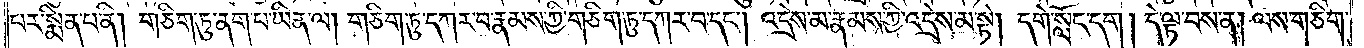པར་སྨིན་པ་ནི། གཅིག་ཏུ་ནག་པ་ཡིན་ལ། གཅིག་ཏུ་དཀར་བ་རྣམས་ཀྱི་གཅིག་ཏུ་དཀར་བ་དང༌། འདྲེས་མ་རྣམས་ཀྱི་འདྲེས་མ་སྟེ། དགེ་སློང་དག །དེ་ལྟ་བས་ན། ལས་གཅིག་
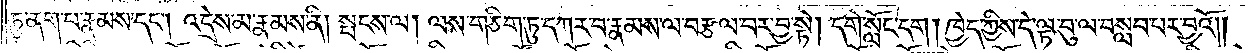ཏུ་ནག་པ་རྣམས་དང༌། འདྲེས་མ་རྣམས་ནི། སྤངས་ལ། ལས་གཅིག་ཏུ་དཀར་བ་རྣམས་ལ་བརྩལ་བར་བྱ་སྟེ། དགེ་སློང་དག ། ཁྱེད་ཀྱིས་དེ་ལྟ་བུ་ལ་བསླབ་པར་བྱའོ༎
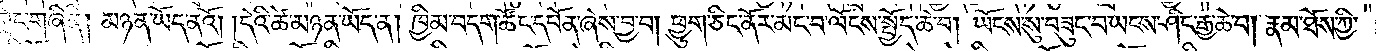གླེང་གཞི་ནི། མཉན་ཡོད་ནའོ། །དེའི་ཚེ་མཉན་ཡོད་ན། ཁྱིམ་བདག་ཚོང་དབོན་ཞེས་བྱ་བ། ཕྱུག་ཅིང་ནོར་མང་བ་ལོངས་སྤྱོད་ཆེ་བ། ཡོངས་སུ་བཟུང་བ་ཡངས་ཤིང་རྒྱ་ཆེ་བ། རྣམ་ཐོས་ཀྱི་
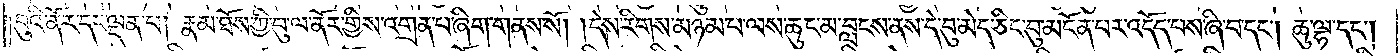བུའི་ནོར་དང་ལྡན་པ། རྣམ་ཐོས་ཀྱི་བུ་ལ་ནོར་གྱིས་འགྲན་པ་ཞིག་གནས་སོ། །དེས་རིགས་མཉམ་པ་ལས་ཆུང་མ་བླངས་ནས་དེ་བུ་མེད་ཅིང་བུ་མངོན་པར་འདོད་པས་ཞི་བ་དང༌། ཆུ་ལྷ་དང༌།
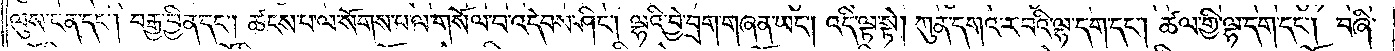ལུས་ངན་དང༌། བརྒྱ་བྱིན་དང༌། ཚངས་པ་ལ་སོགས་པ་ལ་གསོལ་བ་འདེབས་ཤིང༌། ལྷའི་བྱེ་བྲག་གཞན་ཡང༌། འདི་ལྟ་སྟེ། ཀུན་དགའ་ར་བའི་ལྷ་དག་དང༌། ཚལ་གྱི་ལྷ་དག་དང༌། བཞི་
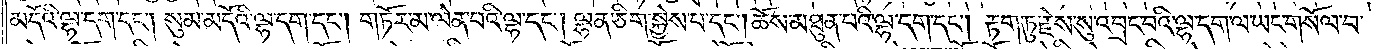མདོའི་ལྷ་དག་དང༌། སུམ་མདོའི་ལྷ་དག་དང༌། གཏོར་མ་ལེན་པའི་ལྷ་དང༌། ལྷན་ཅིག་སྐྱེས་པ་དང༌། ཆོས་མཐུན་པའི་ལྷ་དག་དང༌། རྟག་ཏུ་རྗེས་སུ་འབྲང་བའི་ལྷ་དག་ལ་ཡང་གསོལ་བ་
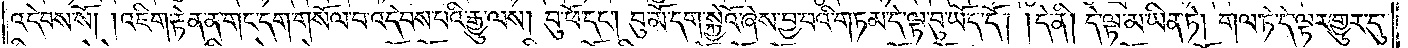འདེབས་སོ། །འཇིག་རྟེན་ན་གང་དག་གསོལ་བ་འདེབས་པའི་རྒྱུ་ལས། བུ་ཕོ་དང༌། བུ་མོ་དག་སྐྱེའོ་ཞེས་བྱ་བའི་གཏམ་དེ་ལྟ་བུ་ཡོད་དོ། །དེ་ནི། དེ་ལྟ་མ་ཡིན་ཏེ། གལ་ཏེ་དེ་ལྟར་གྱུར་དུ་
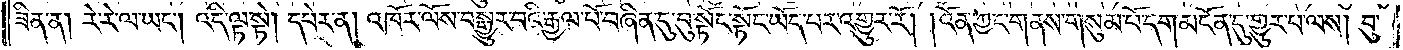ཟིན་ན། རེ་རེ་ལ་ཡང༌། འདི་ལྟ་སྟེ། དཔེར་ན། འཁོར་ལོས་བསྒྱུར་བའི་རྒྱལ་པོ་བཞིན་དུ་བུ་སྟོང་སྟོང་ཡོད་པར་འགྱུར་རོ། །འོན་ཀྱང་གནས་གསུམ་པོ་དག་མངོན་དུ་གྱུར་པ་ལས། བུ་
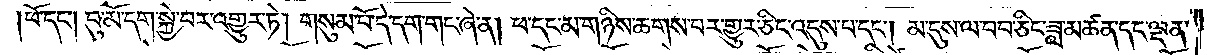ཕོ་དང༌། བུ་མོ་དག་སྐྱེ་བར་འགྱུར་ཏེ། གསུམ་པོ་དེ་དག་གང་ཞེ་ན། ཕ་དང་མ་གཉིས་ཆགས་པར་གྱུར་ཅིང་འདུས་པ་དང༌། མ་དུས་ལ་བབ་ཅིང་ཟླ་མཚན་དང་ལྡན་
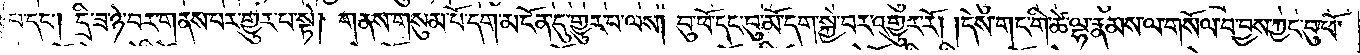པ་དང༌། དྲི་ཟ་ཉེ་བར་གནས་པར་གྱུར་པ་སྟེ། གནས་གསུམ་པོ་དག་མངོན་དུ་གྱུར་པ་ལས། བུ་ཕོ་དང་བུ་མོ་དག་སྐྱེ་བར་འགྱུར་རོ། །དེས་གང་གི་ཚེ་ལྷ་རྣམས་ལ་གསོལ་བ་བྱས་ཀྱང་བུ་ཕོ་
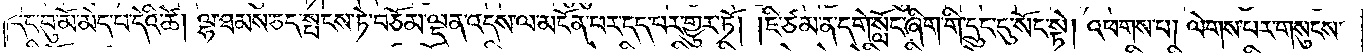དང་བུ་མོ་མེད་པ་དེའི་ཚེ། ལྷ་ཐམས་ཅད་སྤངས་ཏེ་བཅོམ་ལྡན་འདས་ལ་མངོན་པར་དད་པར་གྱུར་ཏོ། །ཇི་ཙམ་ན་དགེ་སློང་ཞིག་གི་དྲུང་དུ་སོང་སྟེ། འཕགས་པ། ལེགས་པར་གསུངས་
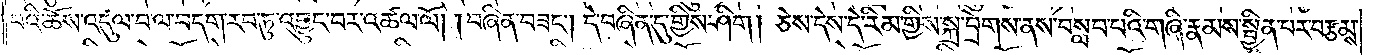པའི་ཆོས་འདུལ་བ་ལ་བདག་རབ་ཏུ་འབྱུང་བར་འཚལ་ལོ། །བཞིན་བཟང༌། དེ་བཞིན་དུ་གྱིས་ཤིག། ཅེས་དེས་དེ་རིམ་གྱིས་སྐྲ་བྲེགས་ནས་བསླབ་པའི་གཞི་རྣམས་སྦྱིན་པར་བརྩམས་
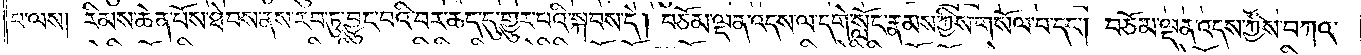པ་ལས། རིམས་ཆེན་པོས་ཐེབས་ནས་རབ་ཏུ་བྱུང་བའི་བར་ཆད་དུ་གྱུར་པའི་སྐབས་དེ། བཅོམ་ལྡན་འདས་ལ་དགེ་སློང་རྣམས་ཀྱིས་གསོལ་པ་དང༌། བཅོམ་ལྡན་འདས་ཀྱིས་བཀའ་
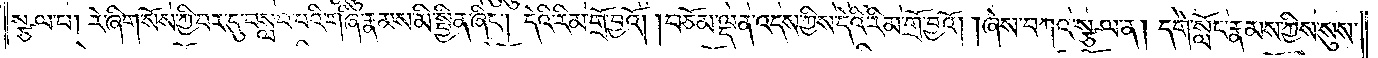སྩལ་པ། རེ་ཞིག་སོས་ཀྱི་བར་དུ་བསླབ་པའི་གཞི་རྣམས་མི་སྦྱིན་ཞིང༌། དེའི་རིམ་གྲོ་བྱའོ། །བཅོམ་ལྡན་འདས་ཀྱིས་དེའི་རིམ་གྲོ་བྱའོ། །ཞེས་བཀའ་སྩལ་ན། དགེ་སློང་རྣམས་ཀྱིས་སུས་
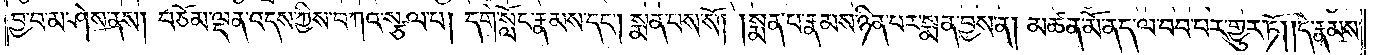བྱ་བ་མ་ཤེས་ནས། བཅོམ་ལྡན་འདས་ཀྱིས་བཀའ་སྩལ་པ། དགེ་སློང་རྣམས་དང༌། སྨན་པས་སོ། །སྨན་པ་རྣམས་ཉིན་པར་སྨན་བྱས་ན། མཚན་མོ་ནད་ལ་བབ་པར་གྱུར་ཏོ། །དེ་རྣམས་
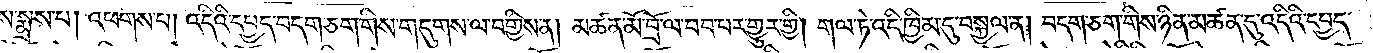ཀྱིས་སྨྲས་པ། འཕགས་པ། འདིའི་དཔྱད་བདག་ཅག་གིས་གདུགས་ལ་བགྱིས་ན། མཚན་མོ་བྲོ་ལ་བབ་པར་གྱུར་གྱི། གལ་ཏེ་འདི་ཁྱིམ་དུ་བསྐྱལ་ན། བདག་ཅག་གིས་ཉིན་མཚན་དུ་འདིའི་དཔྱད་
